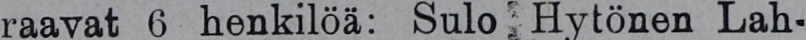raavat 6 henkilöä: Sulo Hytönen Lah-
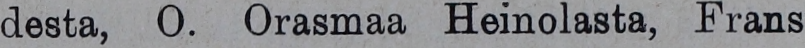desta, O. Orasmaa Heinolasta, Frans
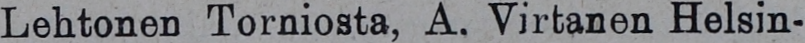Lehtonen Torniosta, A. Virtanen Helsin-
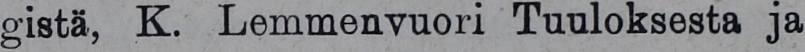gistä, K. Lemmenvuori Tuuloksesta ja
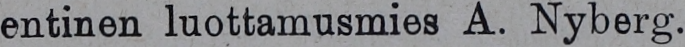entinen luottamusmies A. Nyberg.
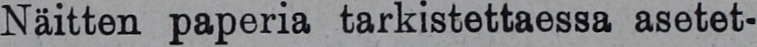Näitten paperia tarkistettaessa asetet-
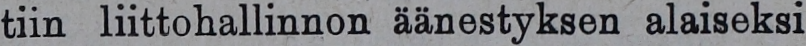tiin liittohallinnon äänestyksen alaiseksi
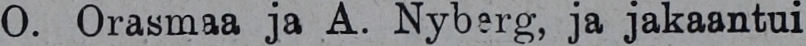O. Orasmaa ja A. Nyberg ja jakaantui
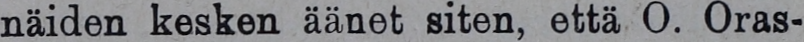näiden kesken äänet siten, että O. Oras-
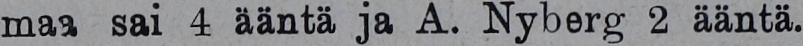maa sai 4 ääntä ja A. Nyberg 2 ääntä,
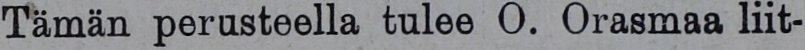Tämän perusteella tulee O. Orasmaa liit-
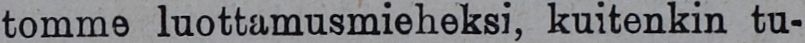tomme luottamusmieheksi, kuitenkin tu-
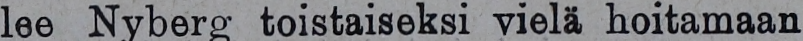lee Nyberg toistaiseksi vielä hoitamaan
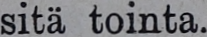sitä tointa.
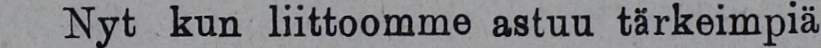Nyt kun liittoomme astuu tärkeimpiä
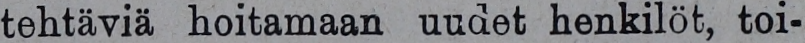tehtäviä hoitamaan uudet henkilöt, toi-
